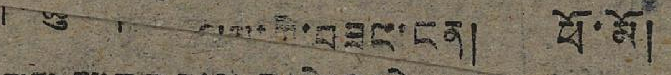ཆུ    ལས་གི་བཟང་ངན། ཕོ་མོ།
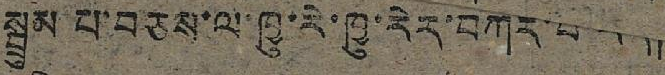སྦྲུམ་པ་བཅས་ལ་ཁྱུ་རེ་ཁྱུ་རེར་བཀར་བ་རེད།
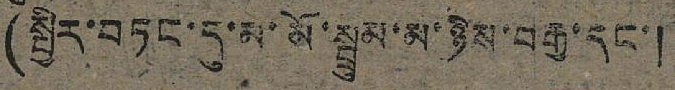(སྤྱིར་བཏང་དུ་མ་མོ་སྦྲུམ་མ་ཉིས་བརྒྱ་དང་།
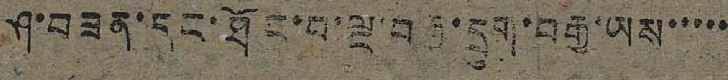ཤ་བཟན་དང་ཐོང་བ་ལྔ་བརྒྱ་དྲུག་བརྒྱ་ཡས་་་་་
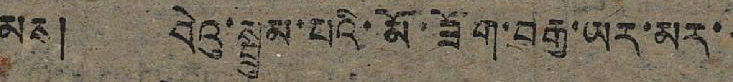མས། བེའུ་སྦྲུམ་པའི་མོ་ཟོག་བརྒྱ་ཡར་མར་
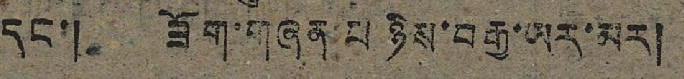དང་། ཟོག་གཞན་པ ཉིས་བརྒྱ་ཡར་མར།
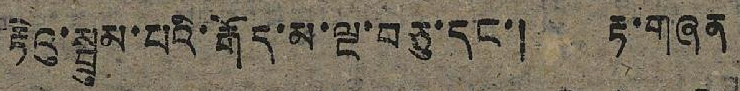རྟེའུ་སྦྲུམ་པའི་རྒོད་མ་ལྔ་བཅུ་དང་། རྟ་གཞན
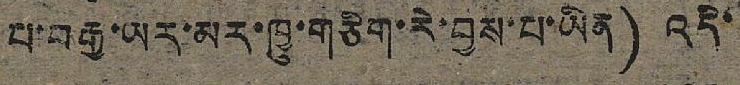པ་བརྒྱ་ཡར་མར་ཁྱུ་གཅིག་རེ་བྱས་པ་ཡིན) འདི་
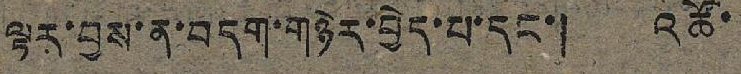ལྟར་བྱས་ན་བདག་གཉེར་བྱེད་པ་དང་། འཚོ་
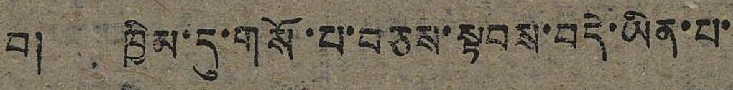བ། ཁྱིམ་དུ་གསོ་པ་བཅས་སྟབས་བདེ་ཡིན་པ་
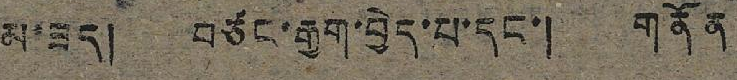མ་ཟད། བཙང་རྒྱག་བྱེད་པ་དང་། གནོན
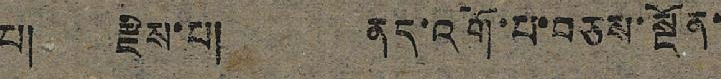པ། རྫིས་པ། ནད་འགོ་པ་བཅས་སྔོན་
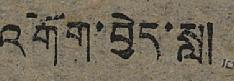འགོག་བྱེད་སླ།
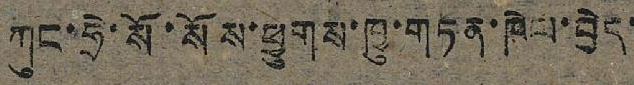ཀུང་ཧྲེ་སོ་སོས་ཕྱུགས་ཁྱུ་གཏན་ཁེཔ་བྱེད་
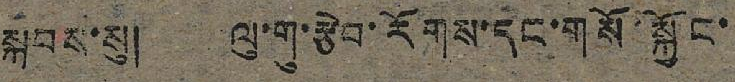སྐབས་སུ། ལུ་གུ་རྩེབ་རོགས་དང་གསོ་སྐྱོང་
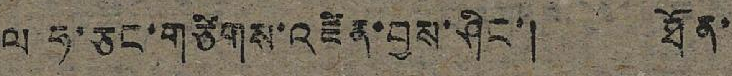ལ ཧ་ཅང་གཙིགས་འཛིན་བྱས་ཤིང་། ཐོན་
